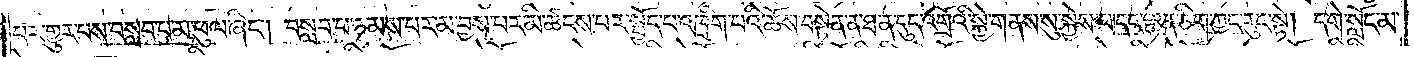པར་གྱུར་པས་བསླབ་པ་མ་ཕུལ་ཞིང༌། བསླབ་པ་ཉམས་པར་མ་བྱས་པར་མི་ཚངས་པར་སྤྱོད་པ་འཁྲིག་པའི་ཆོས་བསྟེན་ན་ཐ་ན་དུད་འགྲོའི་སྐྱེ་གནས་སུ་སྐྱེས་པ་དང་ལྷན་ཅིག་ཀྱང་རུང་སྟེ། དགེ་སློང་མ་
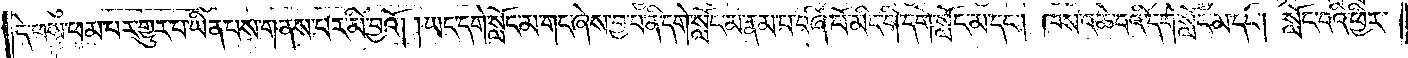དེ་ཕས་ཕམ་པར་གྱུར་པ་ཡིན་པས་གནས་པར་མི་བྱའོ། །ཡང་དགེ་སློང་མ་གང་ཞེ་བྱ་བ་ནི་དགེ་སློང་མ་རྣམ་པ་བཞི་པོ་མིང་གི་དགེ་སློང་མ་དང༌། ཁས་འཆེ་བའི་དགེ་སློང་མ་དང༌། སློང་བའི་ཕྱིར་
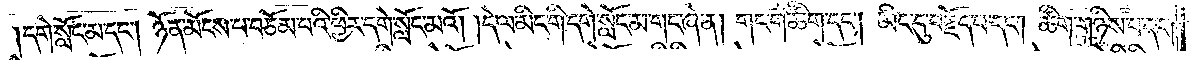/དགེ་སློང་མ་དང༌། ཉོན་མོངས་པ་བཅོམ་པའི་ཕྱིར་དགེ་སློང་མའོ། །དེ་ལ་མིང་གི་དགེ་སློང་མ་གང་ཞེ་ན། གང་གི་ཚིག་དང༌། མིང་དུ་བརྗོད་པ་དང༌། ཚིག་གཉིས་པ་དང༌།
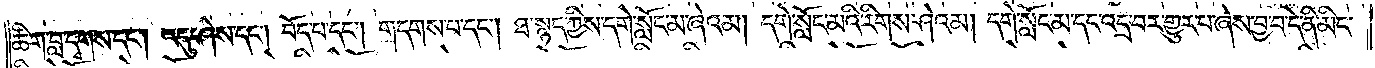ཚིག་བླ་དྭགས་དང༌། འདུ་ཤེས་དང༌། བོད་པ་དང༌། གདགས་པ་དང༌། ཐ་སྙད་ཀྱིས་དགེ་སློང་མ་ཞེའམ། དགེ་སློང་མའི་རིགས་ཤེའམ། དགེ་སློང་མ་དང་འདྲ་བར་གྱུར་པ་ཞེས་བྱ་བ་དེ་ནི་མིང་
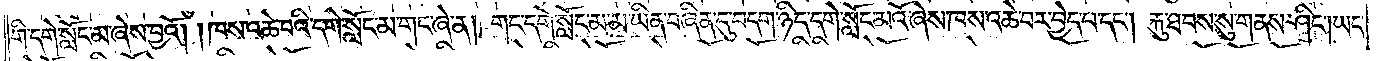གི་དགེ་སློང་མ་ཞེས་བྱའོ། །ཁས་འཆེ་བའི་དགེ་སློང་མ་གང་ཞེ་ན། གང་དགེ་སློང་མ་མ་ཡིན་བཞིན་དུ་བདག་ཉིད་དགེ་སློང་མའོ་ཞེས་ཁས་འཆེ་བར་བྱེད་པ་དང༌། རྐུ་ཐབས་སུ་གནས་ཤིང༌། ཡང་
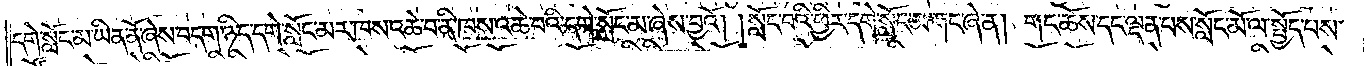དགེ་སློང་མ་ཡིན་ནོ་ཞེས་བདག་ཉིད་དགེ་སློང་མར་ཁས་འཆེ་བ་ནི་ཁས་འཆེ་བའི་དགེ་སློང་མ་ཞེས་བྱའོ། །སློང་བའི་ཕྱིར་དགེ་སློང་མ་གང་ཞེ་ན། གང་ཆོས་དང་ལྡན་པས་སློང་མོ་ལ་སྤྱོད་པས་
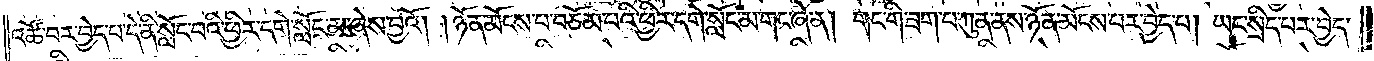འཚོ་བར་བྱེད་པ་དེ་ནི་སློང་བའི་ཕྱིར་དགེ་སློང་མ་ཞེས་བྱའོ། །ཉོན་མོངས་པ་བཅོམ་པའི་ཕྱིར་དགེ་སློང་མ་གང་ཞེ་ན། གང་གི་ཟག་པ་ཀུན་ནས་ཉོན་མོངས་པར་བྱེད་པ། ཡང་སྲིད་པར་བྱེད་
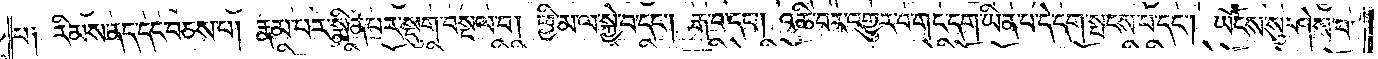པ༑ རིམས་ནད་དང་བཅས་པ། རྣམ་པར་སྨིན་པར་སྡུག་བསྔལ་བ། ཕྱི་མ་ལ་སྐྱེ་བ་དང༌། རྒ་བ་དང༌། འཆི་བར་འགྱུར་བ་གང་དག་ཡིན་པ་དེ་དག་སྤངས་པ་དང༌། ཡོངས་སུ་ཤེས་པ་
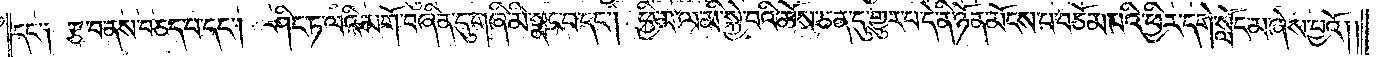དང་༑ རྩ་བ་ནས་བཅད་པ་དང༌། ཤིང་ཏ་ལའི་མགོ་བཞིན་དུ་གཞི་མི་སྣང་བ་དང༌། ཕྱི་མ་ལ་མི་སྐྱེ་བའི་ཆོས་ཅན་དུ་གྱུར་པ་དེ་ནི་ཉོན་མོངས་པ་བཅོམ་པའི་ཕྱིར་དགེ་སློང་མ་ཞེས་བྱའོ། །
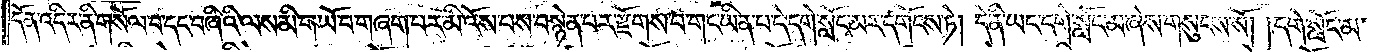དོན་འདིར་ནི་གསོལ་བ་དང་བཞིའི་ལས་མི་གཡོ་བ་གཞག་པར་མི་འོས་པ་བསྙེན་པར་རྫོགས་པ་གང་ཡིན་པ་དེ་དགེ་སློང་མར་དགོངས་ཏེ། དེ་ནི་ཡང་དགེ་སློང་མ་ཞེས་གསུངས་སོ། །དགེ་སློང་མ་
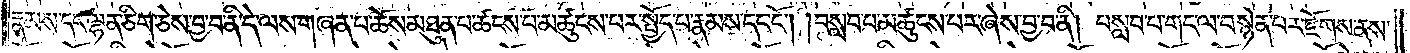རྣམས་དང་ལྷན་ཅིག་ཅེས་བྱ་བ་ནི་དེ་ལས་གཞན་པ་ཆོས་མཐུན་པ་ཚངས་པ་མཚུངས་པར་སྤྱོད་པ་རྣམས་དང་ངོ༌། །བསླབ་པ་མཚུངས་པར་ཞེས་བྱ་བ་ནི། བསླབ་པ་གང་ལ་བསྙེན་པར་རྫོགས་ནས་
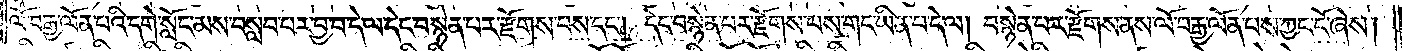ལོ་བརྒྱ་ལོན་པའི་དགེ་སློང་མས་བསླབ་པར་བྱ་བ་དེ་ལ་དེང་བསྙེན་པར་རྫོགས་པས་དང༌། དེང་བསྙེན་པར་རྫོགས་པས་གང་ཡིན་པ་དེ་ལ། བསྙེན་པར་རྫོགས་ནས་ལོ་བརྒྱ་ལོན་པས་ཀྱང་ངོ་ཞེས།
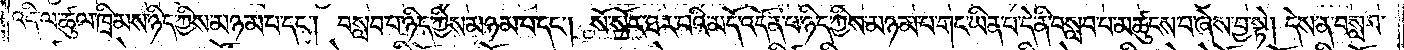འདི་ལ་ཚུལ་ཁྲིམས་ཉིད་ཀྱིས་མཉམ་པ་དང༌། བསླབ་པ་ཉིད་ཀྱིས་མཉམ་པ་དང༌། སོ་སོར་ཐར་པའི་མདོ་འདོན་པ་ཉིད་ཀྱིས་མཉམ་པ་གང་ཡིན་པ་དེ་ནི་བསླབ་པ་མཚུངས་པ་ཞེས་བྱ་སྟེ། དེས་ན་བསླབ་
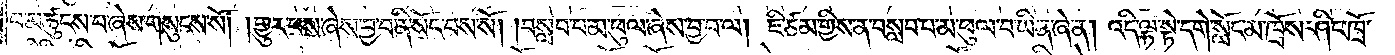པ་མཚུངས་པ་ཞེས་གསུངས་སོ། །གྱུར་པས་ཞེས་བྱ་བ་ནི་སོང་བས་སོ། །བསླབ་པ་མ་ཕུལ་ཞེས་བྱ་བ་ལ། ཇི་ཙམ་གྱིས་ན་བསླབ་པ་མ་ཕུལ་བ་ཡིན་ཞེ་ན། འདི་ལྟ་སྟེ་དགེ་སློང་མ་ཁྲོས་ཤིང་ཁྲོ་
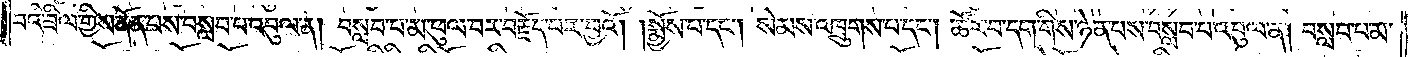བའི་ཟིལ་གྱིས་ནོན་པས་བསླབ་པ་འབུལ་ན། བསླབ་པ་མ་ཕུལ་བར་བརྗོད་པར་བྱའོ། །སྨྱོས་པ་དང༌། སེམས་འཁྲུགས་པ་དང༌། ཚོར་བ་དག་གིས་ཉེན་པས་བསླབ་པ་འབུལ་ན། བསླབ་པ་མ་
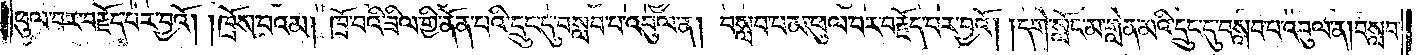ཕུལ་བར་བརྗོད་པར་བྱའོ། །ཁྲོས་པའམ། ཁྲོ་བའི་ཟིལ་གྱི་ནོན་པའི་དྲུང་དུ་བསླབ་པ་འབུལ་ན། བསླབ་པ་མ་ཕུལ་བར་བརྗོད་པར་བྱའོ། །དགེ་སློང་མ་གླེན་མའི་དྲུང་དུ་བསླབ་པ་འབུལ་ན། བསླབ་
